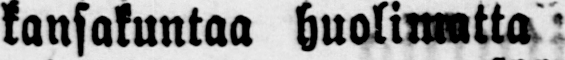kansakuntaa huolimutta niiden kielestä
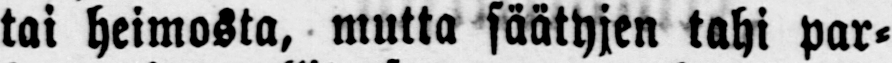tai heimosta, mutta säätyjen tahi par-
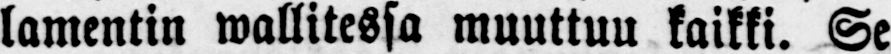lamentin wallitessa muuttuu kaikki. Se
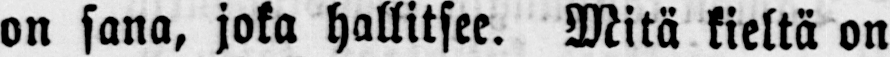on sana, joka hallitsee. Mitä kieltä on
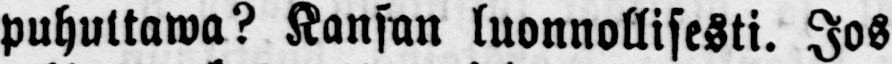puhuttawa? Kansan luonnollisesti. Jos
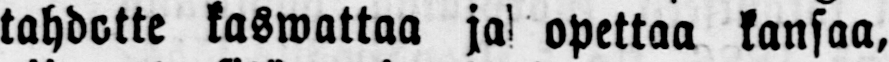tahdotte kaswattaa ja! opettaa kansaa,
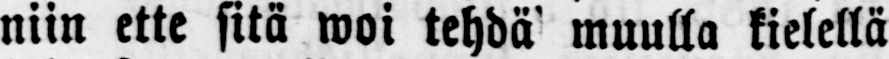niin ette sitä woi tehdä muulla kielellä
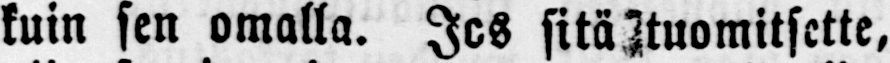kuin sen omalla. Jos sitä tuomitsette,
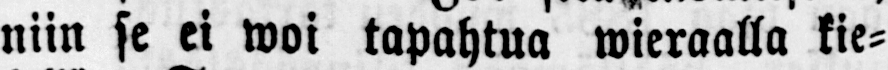niin se ei woi tapahtua wieraalla kie-
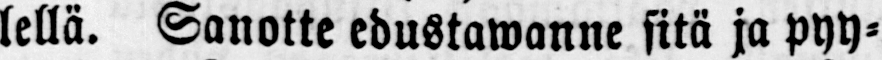lellä. Sanotte edustawanne sitä ja pyy-
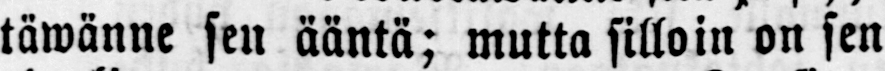täwänne sen ääntä; mutta silloin on sen
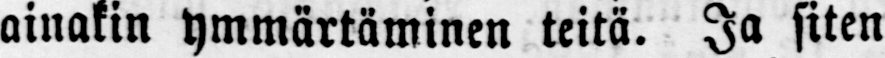ainakin ymmärtäminen teitä. Ja siten
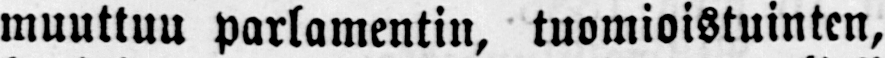muuttuu parlamentin, tuomioistuinten,
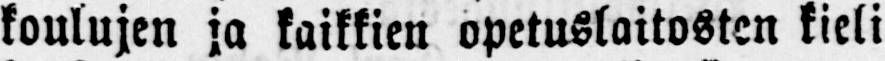koulujen ja kaikkien opetuslaitosten kieli
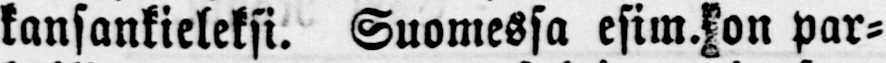kansankieleksi. Suomessa esim. on par-
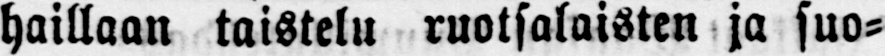haillaan taistelu ruotsalaisten ja suo-
